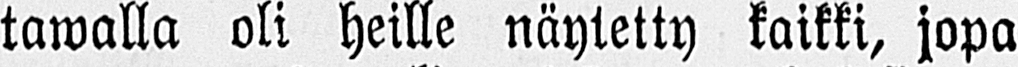tawalla oli heille näytetty kaikki, jopa
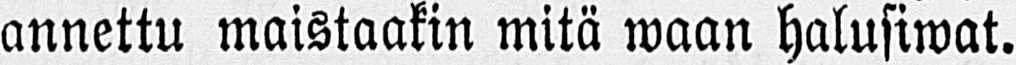annettu maistaakin mitä waan halusiwat.
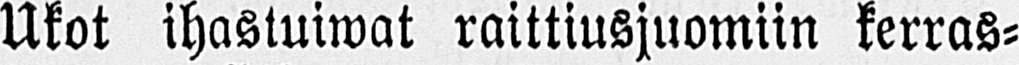Ukot ihastuiwat raittiusjuomiin kerras-
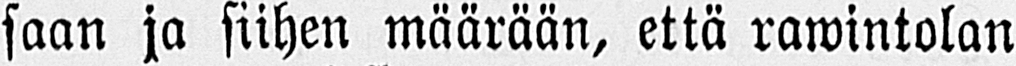saan ja siihen määrään, että rawintolan
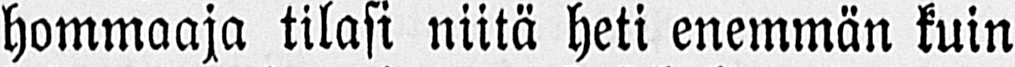hommaaja tilasi niitä heti enemmän kuin
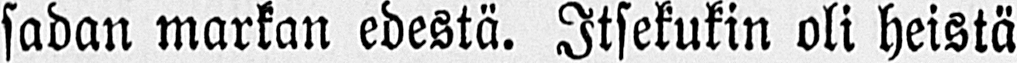sadan markan edestä. Itsekukin oli heistä
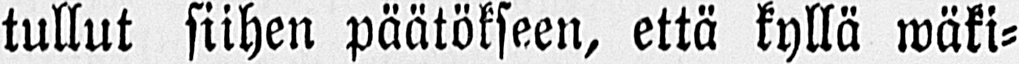tullut siihen päätökseen, että kyllä wäki-
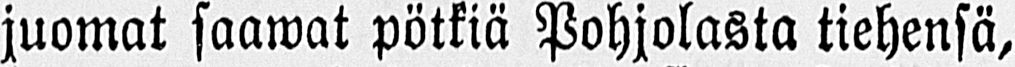juomat saawat pötkiä Pohjolasta tiehensä,
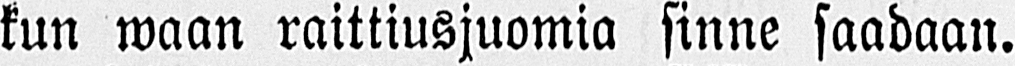kun waan raittiusjuomia sinne saadaan.
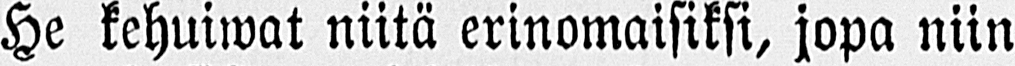He kehuiwat niitä erinomaisiksi, jopa niin
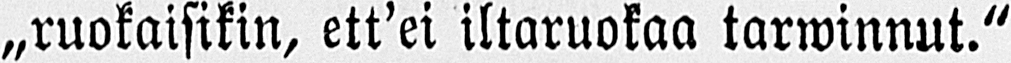„ruokaisikin, ett’ei iltaruokaa tarwinnut."
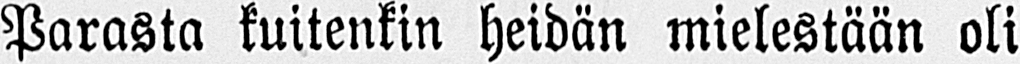Parasta kuitenkin heidän mielestään oli
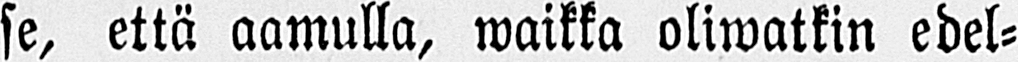se, että aamulla, waikka oliwatkin edel-
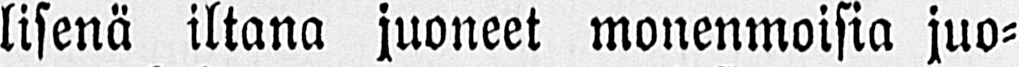lisenä iltana juoneet monenmoisia juo-
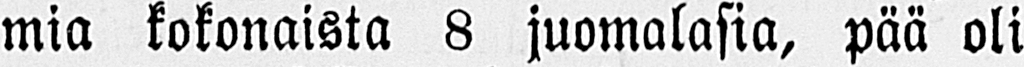mia kokonaista 8 juomalasia, pää oli
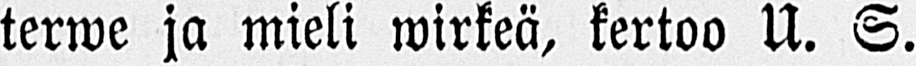terwe ja mieli wirkeä, kertoo U. S.
